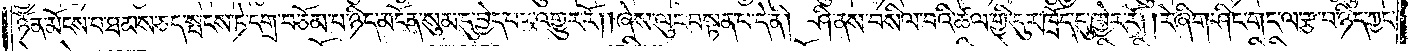ཉོན་མོངས་པ་ཐམས་ཅད་སྤངས་ཏེ་དགྲ་བཅོམ་པ་ཉིད་མངོན་སུམ་དུ་བྱེད་པར་འགྱུར་རོ། །ཞེས་ལུང་བསྟན་པ་དེ་ནི། ཤི་ནས་བསིལ་བའི་ཚལ་གྱི་དུར་ཁྲོད་དུ་ཁྱེར་རོ། །རེ་ཞིག་ཤིང་གང་ལ་རྩ་བ་ཉིད་ཀྱང་
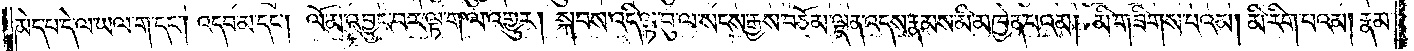མེད་པ་དེ་ལ་ཡལ་ག་དང༌། འདབ་མ་དང༌། ལོ་མ་འབྱུང་བར་ལྟ་ག་ལ་འགྱུར། སྐབས་འདི་ལྟ་བུ་ལ་སངས་རྒྱས་བཅོམ་ལྡན་འདས་རྣམས་མི་མཁྱེན་པའམ། མི་གཟིགས་པའམ། མི་རིག་པའམ། རྣམ་
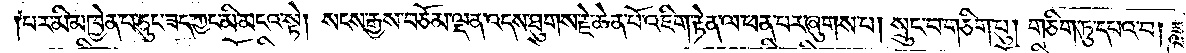།པར་མི་མཁྱེན་པ་ཅུང་ཟད་ཀྱང་མི་མངའ་སྟེ། སངས་རྒྱས་བཅོམ་ལྡན་འདས་ཐུགས་རྗེ་ཆེན་པོ་འཇིག་རྟེན་ལ་ཕན་པར་ཞུགས་པ། སྲུང་བ་གཅིག་པུ། གཅིག་ཏུ་དཔའ་བ། ཟླ་
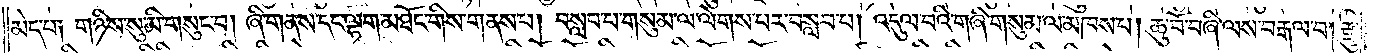མེད་པ། གཉིས་མི་གསུང་བ། ཞི་གནས་དང་ལྷག་མཐོང་གིས་གནས་པ། བསླབ་པ་གསུམ་ལ་ལེགས་པར་བསླབ་པ། འདུལ་བའི་གཞི་གསུམ་ལ་མཁས་པ། ཆུ་བོ་བཞི་ལས་བརྒལ་བ། རྫུ་
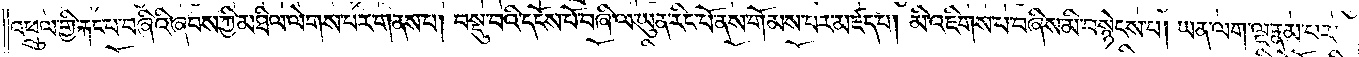འཕྲུལ་གྱི་རྐང་པ་བཞིའི་ཞབས་ཀྱི་མཐིལ་ལེགས་པར་གནས་པ། བསྡུ་བའི་དངོས་པོ་བཞི་ལ་ཡུན་རིང་པོ་ནས་གོམས་པར་མཛད་པ། མི་འཇིགས་པ་བཞིས་མི་བསྙེངས་པ། ཡན་ལག་ལྔ་རྣམ་པར་
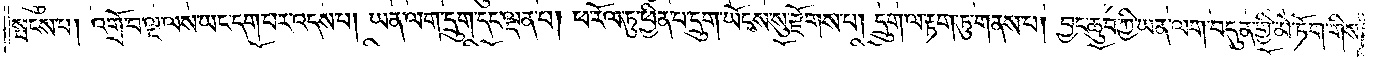སྤངས་པ། འགྲོ་བ་ལྔ་ལས་ཡང་དག་པར་འདས་པ། ཡན་ལག་དྲུག་དང་ལྡན་པ། ཕ་རོལ་ཏུ་ཕྱིན་པ་དྲུག་ཡོངས་སུ་རྫོགས་པ། དྲུག་ལ་རྟག་ཏུ་གནས་པ། བྱང་ཆུབ་ཀྱི་ཡན་ལག་བདུན་གྱི་མེ་ཏོག་གིས་
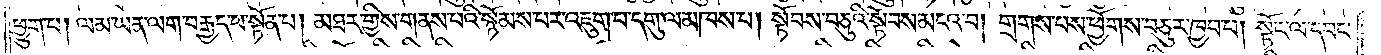ཕྱུག་པ། ལམ་ཡན་ལག་བརྒྱད་པ་སྟོན་པ། མཐར་གྱིས་གནས་པའི་སྙོམས་པར་འཇུག་པ་དགུ་ལ་མཁས་པ། སྟོབས་བཅུའི་སྟོབས་མངའ་བ། གྲགས་པས་ཕྱོགས་བཅུར་ཁྱབ་པ། སྟོང་ལ་དབང་
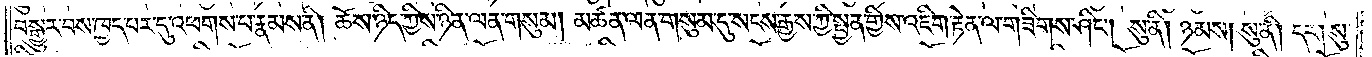བསྒྱུར་བས་ཁྱད་པར་དུ་འཕགས་པ་རྣམས་ནི། ཆོས་ཉིད་ཀྱིས་ཉིན་ལན་གསུམ། མཚན་ལན་གསུམ་དུ་སངས་རྒྱས་ཀྱི་སྤྱན་གྱིས་འཇིག་རྟེན་ལ་གཟིགས་ཤིང༌། སུ་ནི། ཉམས། སུ་ནི། དར། སུ་
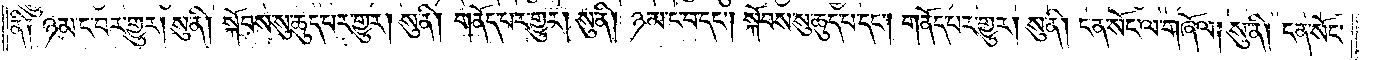ནི། ཉམ་ང་བར་གྱུར། སུ་ནི། སྐོབས་སུ་ཆུད་པར་གྱུར། སུ་ནི། གནོད་པར་གྱུར། སུ་ནི། ཉམ་ང་བ་དང༌། སྐོབས་སུ་ཆུད་པ་དང༌། གནོད་པར་གྱུར། སུ་ནི། ངན་སོང་ལ་གཞོལ། སུ་ནི། ངན་སོང་
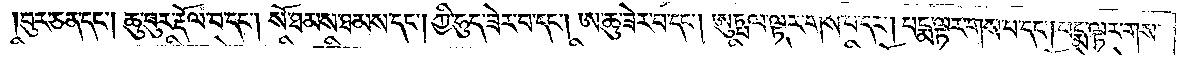བུར་ཅན་དང༌། ཆུ་བུར་རྡོལ་བ་དང༌། སོ་ཐམས་ཐམས་དང༌། ཀྱི་ཧུད་ཟེར་བ་དང༌། ཨ་ཆུ་ཟེར་བ་དང༌། ཨུཏྤལ་ལྟར་གས་པ་དང༌། པདྨ་ལྟར་གས་པ་དང༌། པདྨ་ལྟར་གས་
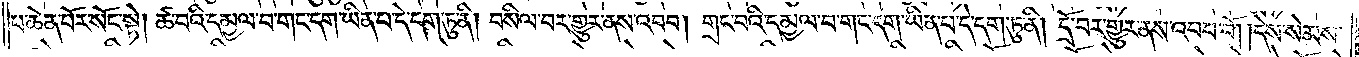པ་ཆེན་པོར་སོང་སྟེ། ཚ་བའི་དམྱལ་བ་གང་དག་ཡིན་པ་དེ་དག་ཏུ་ནི། བསིལ་བར་གྱུར་ནས་འབབ། གྲང་བའི་དམྱལ་བ་གང་དག་ཡིན་པ་དེ་དག་ཏུ་ནི། དྲོ་བར་གྱུར་ནས་འབབ་བོ། །དེས་སེམས་
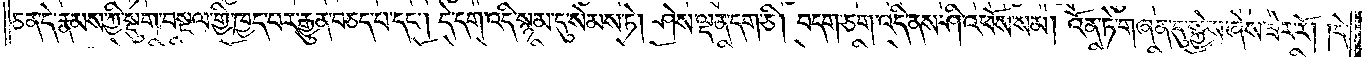ཅན་དེ་རྣམས་ཀྱི་སྡུག་བསྔལ་གྱི་ཁྱད་པར་རྒྱུན་བཅད་པ་དང༌། དེ་དག་འདི་སྙམ་དུ་སེམས་ཏེ། ཤེས་ལྡན་དག་ཅི། བདག་ཅག་འདི་ནས་ཤི་འཕོས་སམ། འོན་ཏེ་གཞན་དུ་སྐྱེས་ཞེས་ཟེར་རོ། །དེ་
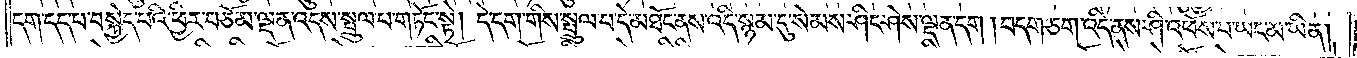དག་དད་པ་བསྐྱེད་པའི་ཕྱིར་བཅོམ་ལྡན་འདས་སྤྲུལ་པ་གཏོང་སྟེ། དེ་དག་གིས་སྤྲུལ་པ་དེ་མཐོང་ནས་འདི་སྙམ་དུ་སེམས་ཤིང་ཤེས་ལྡན་དག །བདག་ཅག་འདི་ནས་ཤི་འཕོས་པ་ཡང་མ་ཡིན།
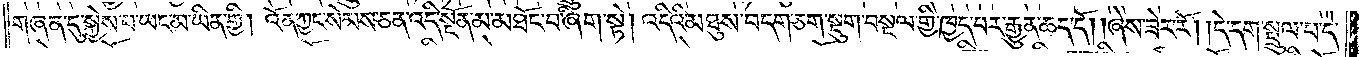གཞན་དུ་སྐྱེས་པ་ཡང་མ་ཡིན་གྱི། འོན་ཀྱང་སེམས་ཅན་འདི་སྔོན་མ་མཐོང་བ་ཞིག་སྟེ། འདིའི་མཐུས་བདག་ཅག་སྡུག་བསྔལ་གྱི་ཁྱད་པར་རྒྱུན་ཆད་དོ། །ཞེས་ཟེར་རོ། །དེ་དག་སྤྲུལ་པ་དེ་
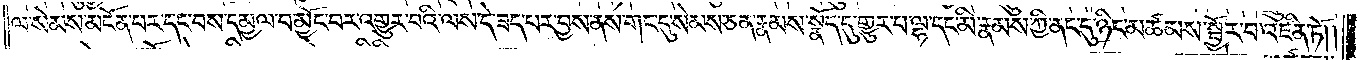ལ་སེམས་མངོན་པར་དང་བས་དམྱལ་བ་མྱོང་བར་འགྱུར་བའི་ལས་དེ་ཟད་པར་བྱས་ནས་གང་དུ་སེམས་ཅན་རྣམས་སྣོད་དུ་གྱུར་པ་ལྷ་དང་མི་རྣམས་ཀྱི་ནང་དུ་ཉིང་མཚམས་སྦྱོར་བ་འཛིན་ཏོ། །
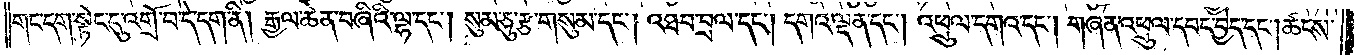གང་དག་སྟེང་དུ་འགྲོ་བ་དེ་དག་ནི། རྒྱལ་ཆེན་བཞིའི་ལྷ་དང༌། སུམ་ཅུ་རྩ་གསུམ་དང༌། འཐབ་བྲལ་དང༌། དགའ་ལྡན་དང༌། འཕྲུལ་དགའ་དང༌། གཞན་འཕྲུལ་དབང་བྱེད་དང༌། ཚངས་
